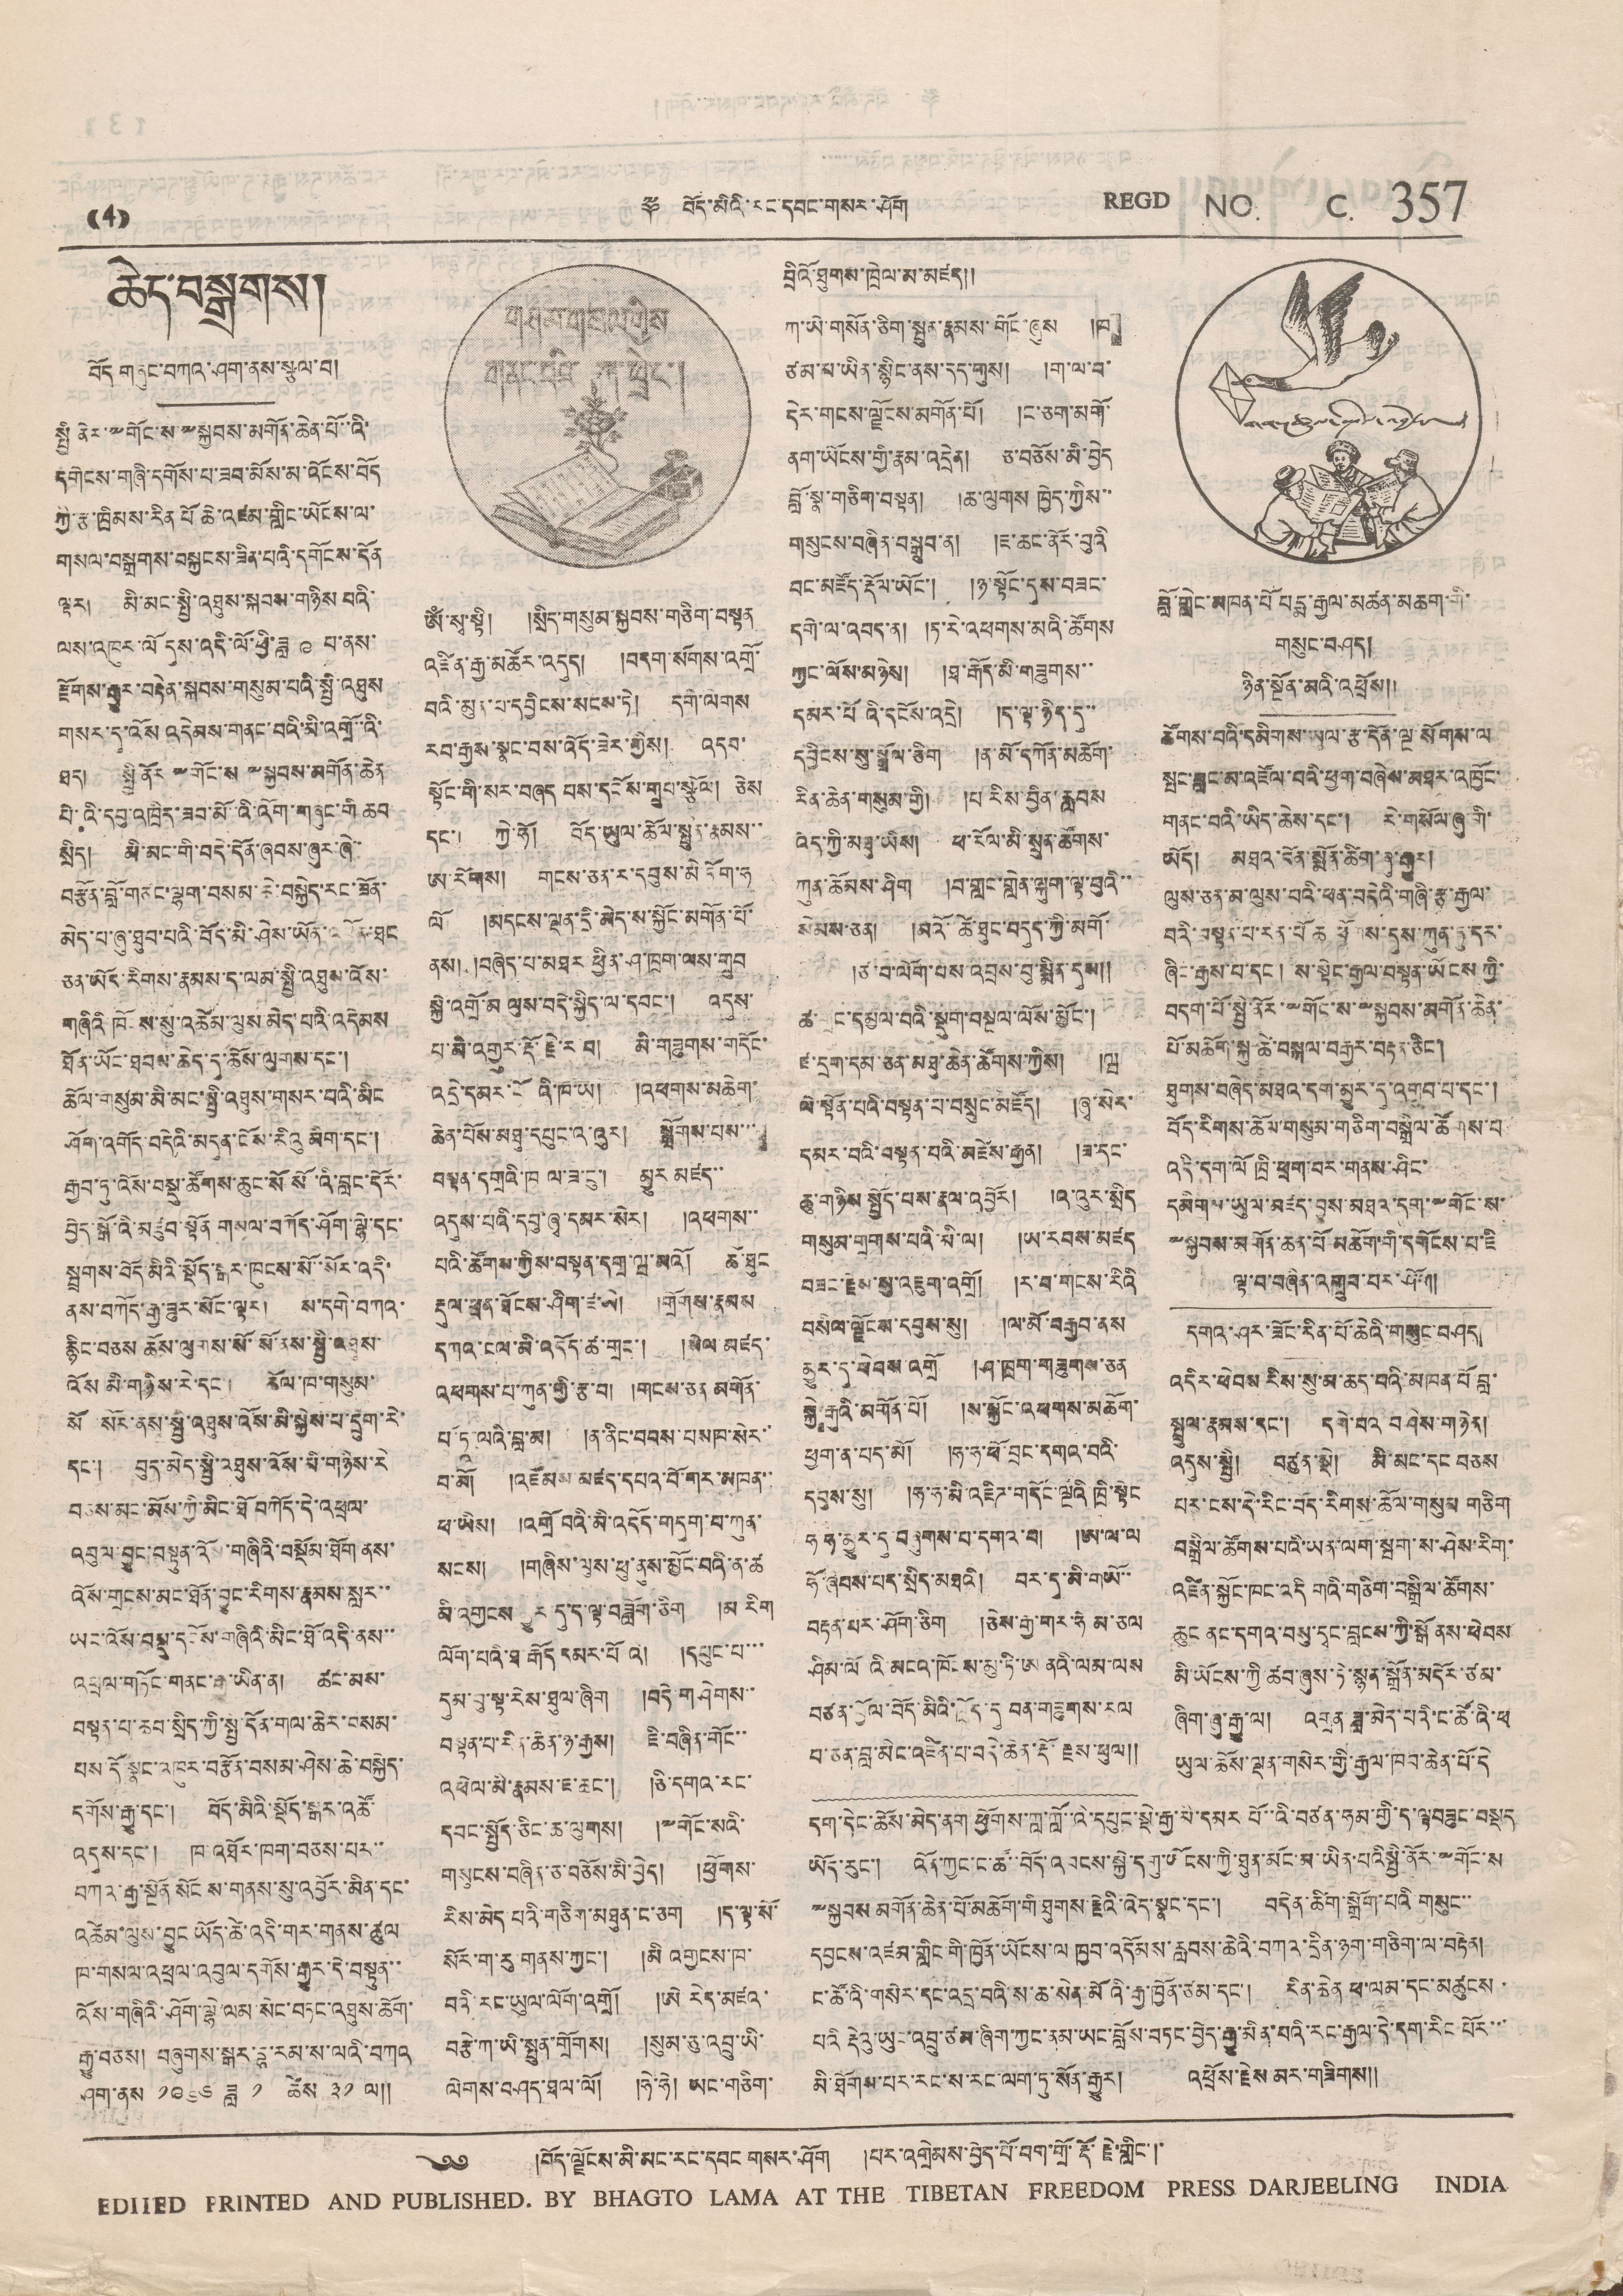((4)) ༈ བོད་མིའི་རང་དབང་གསར་ཤོག REGD NO. C. 357
ཆེད་བསྒྲགས།
བོད་གཞུང་བཀའ་ཤག་ནས་སྩལ་བ།
སྤྱི ནོར་༸གོང་ས་༸སྐྱབས་མགོན་ཆེན་པོ་་འི་
དགེངས་གཞི་དགོས་པ་ཟབ་མོས་མ་འོངས་བོད
ཀྱི་རྩ་ཁྲིམས་རིན པོ ཆེ་འཛམ་གླིང་ཡོངས་ལ་
གསལ་བསྒྲགས་བསྐྱངས་ཟིན་པའི་དགོངས་དོན་
ལྟར། མི་མང་སྤྱི་འཐུན་སྐབས་གཉིས པའི་
ལས་འཁུར་ལོ དུས་འདི་ལོ་ཟླ་ ༩ པ་ནས་
རྫོགས་རྒྱུར་བརྟེན་སྐབས་གསུམ་པའི་སྤྱི་འཐུས
གསར་དུ་འོས འདེམས་གནང་པའི་མི་འགྲོ་་འི་
ཐད། སྤྱི ནོར ༸གོང་ས ༸སྐྱབས་མགོན་ཆེན
པེ་ འི་དབུ་འཁྲིད་ཟབ་མོ་འི་འོག་གཞུང་གི ཆབ
སྲིད། མི་མིང་གི་བདེ་དོན་ཞབས་ཞུར་ཞེ་་
བརྩོན་བློ་གཙང་ལྷག་བསམ་ཆེ་བསྐྱེད་རང་ཟོན་
མེད་པ་ཞུ་ཐུབ་པའི་བོད་མི་ཤེས་ཡོན་འཕོན་ཐང
ཅན་ཡོད་རིགས་རྣམས་ད་ལམ་སྤྱི་འཐུས་འོས་
གཞིའི ཁོངས་སུ་འཚེམ་ལུས་མེད་པའི་འདེམས
ཐོན་ཡོང་ཐབས་ཆེད་དུ་ཆོས་ལུགས་དང་།
ཆོལ་གསུམ་མི་མང་སྤྱི་འཐུས་གསར་བའི་མིང
ཤོག་འགོད་བདེའི་མདུན་ངོས་རིའུ མིག་དང་།
རྒྱབ་ཏུ་འོས་བསྡུ་ཚོགས་ཆུང་སོ སོ་འི་བླང་དོར་
བྱེད་སྒོ་འི་མཛུབ་སྟོན གསལ་བཀོད་ཤོག་ལྷེ་དང་
སྦྲགས་བོད་མིའི་སྡོད་སྒར་ཁུངས་སོ་་སོར་འདི་
ནས་བཀོད་རྒྱ་ཟུར་སོང་ལྟར། ས་དགེ་བཀའ་
རྙིང་བཅས ཆོས་ལུགས་སོ་སོ་ནས་སྤྱི་འཐུས་
འོས མི་གཉིས་རེ་དང་། ཆོལ་ཁ་གསུམ་
སོ སོར་ནས་སྤྱི་འཐུས་འོས་མི་སྐྱེས་པ་དྲུག་རེ་
དང་། བུད་མེད་སྤྱི་འཐུས་འོས་མི་གཉིས་རེ
བཅས་མང་མོས་ཀྱི་མིང་ཐོ བཀོད་དེ་འཕྲལ་
འབུལ་བྱུང་བསྟུན་འོས་གཞིའི་བསྡོམ་ཐོག ནས་
འོས་གྲངས་མང་ཐོན་བྱུང་རིགས་རྣམས་སླར་་
ཡང་འོས་བསྡུ་དངོས་གཞིའི་མིང་ཐོ་འདི་ནས་་
འཕྲལ་གཏོང་གནང་རྒྱུ་ཡིན་ན། ཚང་མས་
བསྟན་པ་ཆབ་སྲིད་ཀྱི་སྤྱི་དོན་གལ་ཆེར་བསམ་
པས་དོ་སྣང་འཁུར་བརྩོན་བསམ་ཤེས་ཆེ་བསྐྱེད་
དགོས་རྒྱུ་དང་། བོད་མིའི་སྡོད་སྒར་འཚོ་
འདུས་དང་། ཁ་འཐོར་ཁག་བཅས་པར་་
བཀའ་རྒྱ་སྔོན སོང་ས་གནས་སུ་འབྱོར་མིན་དང་
འཚེམ་ལུས་བྱུང ཡོད་ཚེ་འདི་གར་གནས་ཚུལ
ཁ་གསལ་འཕྲལ་འབུལ་དགོས་རྒྱུར་དེ་བསྟུན་་
འོས་གཞིའི་ཤོག་ལྷེ་ལམ་སེང་བཏང་འཐུས་ཆོག་
རྒྱུ་བཅས། བཞུགས་སྒར་དྷ་རམ་ས་ལའི་བཀའ
ཤག་ནས ༡༩༦༦ ཟླ ༡ ཚེས ༣༡ ལ།།
གཤམ་གསལ་གྱིས་
གནང་བའི་ཀ་ཕྲེང་།
ཨོཾ་སྭ་སྟི། །སྲིད་གསུམ་སྐྱབས་གཅིག་བསྟན་
འཛིན་རྒྱ་མཚོར་འདུད། །བདག་སོགས་འགྲོ་
བའི་མུན་པ་དབྱིངས་སངས་ཏེ། དགེ་ལེགས
རབ་རྒྱས་སྣང་བས་འོད་ཟེར་གྱིས། འདབ་
སྟོང་གི་སར་བཞད པས་དངོས་གྲུབ་སྩོལ། ཅེས
དང་། ཀྱེ་ཧོ། བོད་ཡུལ་ཆོལ་སྤུན་རྣམས་་
ཨ་རོགས། གངས་ཅན་ར་དབུས་མེ་ཏོག་ཧ
ལོ །མདངས་ལྡན་དྲི་མེད་ས་སྐྱོང་མགོན་པོ་
ནས། །བཞེད་པ་མཐར ཕྱིན་ཤ་ཁྲག་ལས་གྲུབ
སྐྱེ་འགྲོ་མ ལུས་བདེ་སྐྱིད་ལ་དབང་། འདུས་
པ་མི་འགྱུར་རྡོ་རྗེ་ར བ། མི་གཟུགས་གདོང་
འདྲེ་དམར་པོ འི་ཁ་ཡ། །འཕགས་མཆེག་
ཆེན་པོས་མཐུ་དཔུང་འ་འུར། སྒྲོགས་པས་་་
བསྟན་དགྲའི་ཁ ལ་ཟ་ངུ་། མྱུར མཛད་་
འདུས་པའི་དབུ་ཞྭ་དམར་སེར། འཕགས་་
པའི་ཚོགས་ཀྱིས་བསྟན་དགྲ་ཝ་མའོ། ཆོ་ཐུང
རྡུལ་ཕྲན་ཐོངས་ཤིག་ཛ་ཨེ། །གྲོགས་རྣམས
དཀའ་ངལ་མི་འདོད་ཚ་གྲང་། །སེལ མཛད་
འཕགས་པ་ཀུན་གྱི་རྩ་བ། །གངས་ཅན མགོན་
པོ་ཏཱ་ལའི་བླ་མ། །ན་ནིང་བབས་པསཁ་སེར་
བ་མོ། །འཇོམས་མཛད་དཔའ་བོ་གར་མཁན་་
ཕ་ཡིས། །འགྲོ བའི་མི་འདོད་གདུག་པ་ཀུན་
སངས། །གཞིས་ལུས་ཕུ་ནུས་མྱོང་བའི་ན་ཚ
མི་འགྱངས་མྱུར་དུ་ད་ལྟ་བཟློག་ཅིག །མ་རིག
ལོག་པའི་ཐ་རྒོད་དམར་པོའི། །དཔུང་པ་་་
དུམ་བུ་སྟ་རེས་ཐུལ་ཞིག །བདེ་གཤེགས་་
བསྟན་པ་རིན་ཆེན་ཉ་རྒྱས། ཇི་བཞིན་གོང་་
འཕེལ་མི་རྣམས་ཇ་ཆང་། །ཅི་དགའ་རང་
དབང་སྤྱོད་ཅིང་ཆ་ལུགས། །༸གོང་སའི་
གསུངས་བཞིན་ཅ་བཅོས་མི་བྱེད། །ཕྱོགས་
རིས་མེད་པའི་གཅིག་མཐུན་ང་ཅག །ད་ལྟ་སོ་
སོར་ག་རུ གནས་ཀྱང་། །མི་འགྱངས་ཁ་
བའི་རང་ཡུལ་ལོག་འགྲོ། །ཨེ་རེད་མཛའ་
བརྩེ་ཀ་ཡི་སྤུན་གྲོགས། །སུམ་ཅུ་འབྲུ་ཡི་
ལེགས་བཤད་ཐལ་ལོ། །ཧེ་ཧེ། ཡང་གཅིག་
བྲིའོ་ཐུགས་ཁྲེལ་མ་མཛད།།
ཀ་ཡེ་གསོན་ཅིག་སྤུན་རྣམས་གོང་ཞུས །ཁ
ཙམ་མ་ཡིན་སྙིང་ནས་དད་གུས། །ག་ལ་བ་
དེར་གངས་ལྗོངས་མགོན་པོ། །ང་ཅག་མགོ་
ནག་ཡོངས་གྱི་རྣམ་འདྲེན། ཅ་བཅོས་མི་བྱེད
བློ་སྣ་གཅིག་བསྟན། །ཆ་ལུགས ཁྱེད་ཀྱིས་་
གསུངས་བཞིན་བསྒྲུབ་ན། ཇ་ཆང་ནོར་བུའི
བང་མཛོད་རྡོལ་ཡོང་། །ཉ་སྟོང་དུས་བཟང་
དགེ་ལ་འབད་ན། །ཏ་རེ་འཕགས་མའི་ཚོགས
ཀྱང་ལོས་མཉེས། །ཐ་རྒོད་མི་གཟུགས་་
དམར་པོའི་དངོས་འདྲེ། །ད་ལྟ་ཉིད་དུ་་
དབྱིངས་སུ་སྒྲོལ་ཅིག །ན་མོ་དཀོན་མཆོག་
རིན་ཆེན་གསུམ་གྱི། །པ རིས་བྱིན་རླབས
འོད་ཀྱི་མཐུ་ཡིས། ཕ་རོལ་མི་སྲུན་ཚོགས་
ཀུན་ཆོམས་ཤིག །བ་གླང་གླེན་ལྐུག་ལྟ་བུའི་་
སེམས་ཅན། །མའོ་ཚེ་ཐུང་བདུད་ཀྱི་མགོ་
།ཙ་བ་ལོག་བས་འབྲས་བུ་སྨིན་དུས།།
ཚ་གྲང་དམྱལ་བའི་སྡུག་བསྔལ་ལོས་མྱོང་།
ཛ་དྲག་དམ་ཅན་མཐུ་ཆེན་ཚོགས་ཀྱིས། །ཝ
ལེ་སྟོན་པའི་བསྟན་པ་བསྲུང་མཛོད། །ཞྭ་སེར་
དམར་བའི་བསྟན་པའི་མཛེས་རྒྱན། །ཟ་དང་
ཆུ་གཉིས་སྤྱོད་པས་རྣལ་འབྱོར། །འ་འུར་སྲིད
གསུམ་གྲགས་པའི་མི་ལ། ཡ་རབས་མཛད
བཟང་རྗེས་སུ་འཇུག་འགྲོ། །ར་བ་གངས་རིའི
བསིལ་ལྗོངས་དབུས་སུ། །ལ་མོ་བརྒྱབ་ནས
མྱུར་དུ་ཕེབས་འགྲོ །ཤ་ཁྲག་གཟུགས་ཅན
སྐྱེ རྒུའི་མགོན་པོ། །ས་སྐྱོང་འཕགས་མཆོག་
ཕྱག་ན་པད་མོ། །ཧ་ཧ་ཕོ་བྲང་དགའ་བའི་
དབུས་སུ། །ཧ་ཧ་མི་འཇིཌ་གདོང་ལྔའི་ཁྲི་སྟེང
ཧ ཧ་མྱུར་དུ་བཞུགས་པ་དགའ་བ། །ཨ་ལ་ལ
ཧོ་ཞབས་པད་སྲིད་མཐའི། བར་དུ་མི་གཡོ་་
བརྟན་པར་ཤོག་ཅིག །ཅེས་རྒྱ་གར་ཧེ མ་ཅལ
ཤིམ་ལོའི་མངའ་ཁོངས་མུ་ཏི་ཨ ནའི་ལམ་ལས
བཙན་བྱོལ་བོད་མིའི་ཁྲོད་དུ བན་གཟུགས་རལ
བ་ཅན་བླ་མིང་འཛིན་པ་བདེ་ཆེན་རྡོ་རྗས་ཕུལ།།
གནས་ཚུལ་སྤེལ་འབྱོར།
བློ་གླེང་མཁན་པོ པདྨ་རྒྱལ་མཚན་མཆག་གི་
གསུང་བཤད།
ཉིན་སྔོན་མའི་འཕྲོས།།
ཚོགས་པའི་དམིགས་ཡུལ་རྩ་དོན་ལྔ་སོགས་ལ
སྤང་བླང་མ་འཇོལ་པའི་ཕྱག་བཞེས་མཐར་འཁྱོང་
གནང་པའི་ཡིད་ཆེས་དང་། རེ་གསོལ་ཞུ་གི་
ཡོད། མཐའ་དོན་སྨོན་ཚོག་ཞུ་རྒྱུར།
ལུས་ཅན་མ་ལུས་པའི་ཕན་བདེའི་གཞི་རྩ་རྒྱལ་
བའི་བསྟན་པ་རན་པོ ཆ ཕྱོགས་དུས་ཀུན་ཏུ་དར་
ཞིང་རྒྱས་པ་དང ། ས་སྟེང་རྒྱལ་བསྟན་ཡོངས ཀྱི་
བདག་པོ་སྤྱི་ནོར་༸གོང་ས་༸སྐྱབས་མགོན་ཆེན་
པོ་མཆོག་སྐུ་ཚེ་བསྐལ་བརྒྱར་བརྟན་ཅིང་།
ཐུགས་བཞེད་མཐའ་དག་མྱུར་དུ་འགྲུབ་པ་དང་།
བོད་རིགས་ཆོལ་གསུམ་གཅིག་བསྒྲིལ་ཚོགས་པ
འདི་དག་ལོ ཁྲི་ཕྲག་བར་གནས་ཤིང་
དམིགས་ཡུལ་མཛད་བྱུས་མཐའ་དག་༸གོང་ས་
༸སྐྱབས་མགོན་ཆེན་པོ་མཆོག་གི་དགོངས་པ་ཇི
ལྟ་བ་བཞིན་འགྲུབ་པར་ཤོག།
དགའ་ཤར་ཟོང་རིན་པོ་ཆེའི་གསུང་བཤད།
འདིར་ཕེབས རིས་སུ་མ་ཆད་པའི་མཁན་པོ བླ་
སྤྲུལ་རྣམས་དང་། དགེ་བའ བཤེས་གཉེན།
འདུས་སྤྱི། བཙུན་སྡེ། མི་མང་དང བཅས
པར་ངས་དེ་རིང་བོད་རིགས་ཆོལ་གསུམ གཅིག
བསྒྲིལ་ཚོགས་པའི་ཡན་ལག་སྦག་ས་ཤེས་རིག་
འཛིན་སྐྱོང་ཁང་འདི གའི་གཅིག་བསྒྲིལ་ཚོགས་
ཆུང ནང་དགའ་བསུ་དྭང་བླངས་ཀྱི་སྒོ་ནས་ཕེབས
མི་ཡོངས་ཀྱི་ཚབ་ཞུས་ཏེ་སྙན་སྒྲོན་མདོར་ཙམ་
ཞིག་ཞུ་རྒྱ་ལ། འགྲན ཟླ་མེད་པའི་ང་ཚོ་འི་ཕ
ཡུལ་ཆོས་ལྡན་གསེར་གྱི་རྒྱལ་ཁབ་ཆེན་པོ་དེ
དག་དེང་ཆོས་མེད་ནག ཕྱོགས་ཀླ་ཀློ་་འི་དཔུང་སྡེ་རྒྱ་མི་དམར་པོ་་འི་བཙན་ཧམ་གྱི་ད་ལྟ བཟུང་བསྡད
ཡོད་རུང་། འོན་ཀྱང་ང་ཚོ་་བོད་འབངས་སྐྱེ་དགུ་ཡོངས་ཀྱི་ཐུན་མོང་མ་ཡིན་པའི་སྤྱི་ནོར་༸གོང་ས
༸སྐྱབས མགོན་ཆེན་པོ་མཆོག་གི་ཐུགས་རྗེའི་འོད་སྣང་དང་། བདེན་ཚིག་སྒྲོག་པའི་གསུང་་
དབྱངས་འཛམ་གླིང་གི་ཁྱོན་ཡོངས་ལ ཁྱབ་འདོམས་རླབས་ཆེའི་བཀའ་དྲིན་ཉག་གཅིག་ལ་བརྟེན།
ང་ཚོའི་གསེར་དང་འདྲ་བའི་ས་ཆ་སེན་མོའི་རྒྱ་ཁྱོན་ཙམ་དང་། རིན་ཆེན ཕ་ལམ་དང་མཚུངས
པའི རྡེའུ་ཡུང་འབྲུ་ཙམ་ཞིག་ཀྱང་ནམ་ཡང་བློས་བཏང་བྱེད་རྒྱུ་མིན་པའི་རང་རྒྱལ་དེ་དག་རིང་པོར་་་
མི་ཐོགས་པར་རང་ས་རང་ལག་ཏུ་སོན་རྒྱུར། འཕྲོས་རྗེས མར་གཟིགས།།
༄༅ །བོད་ལྗོངས་མི་མང་རང་དབང གསར་ཤོག །པར་འགྲེམས་བྱེད་པོ་པག་གྲོ་རྡོ་གླིང་།་
EDITED PRINTED AND PUBLISHED. BY BHAGTO LAMA AT THE TIBETAN FREEDOM PRESS DARJEELING INDIA
